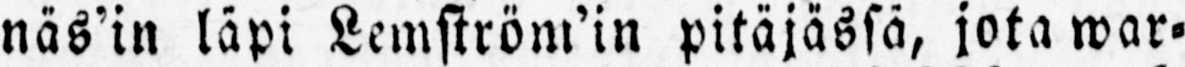näs’in läpi Lemström’in pitäjässä, jota war-
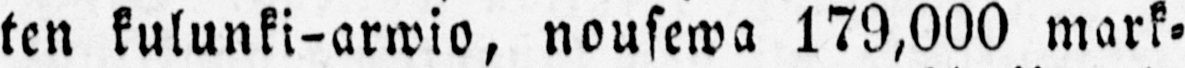ten kulunki-arwio, nousewa 179,000 mark-
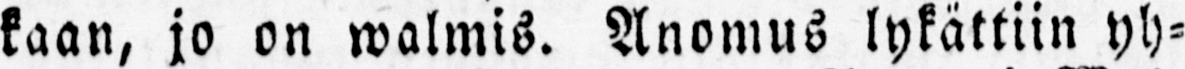kaan, jo on walmis. Anomus lykättiin yh-
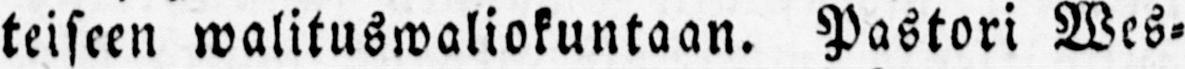teiseen walituswaliokuntaan. Pastori Wes-
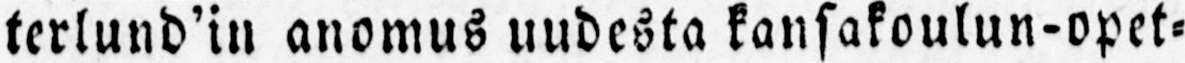terlund’in anomus uudesta kansakoulun-opet-
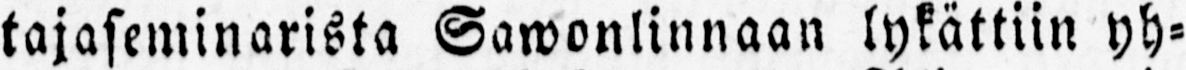tajaseminarista Sawonlinnaan lykättiin yh-
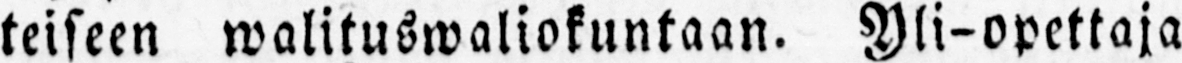teiseen walituswaliokuntaan. Yli-opettaja
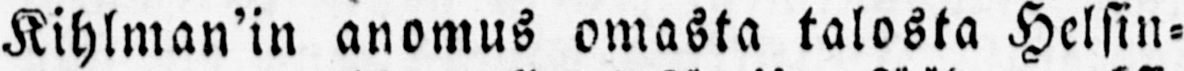Kihlman’in anomus omasta talosta Helsin-
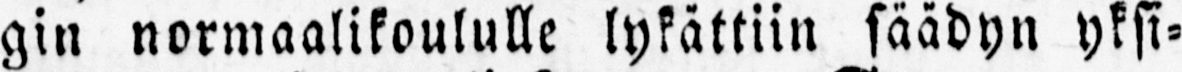gin normaalikoululle lykättiin säädyn yksi-
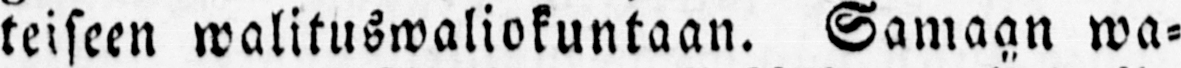öiseen walituswaliokuntaan. Samaan wa-
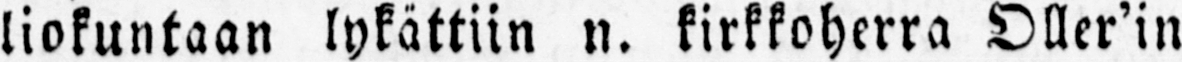liokuntaan lykättiin n. kirkkoherra Öller’in
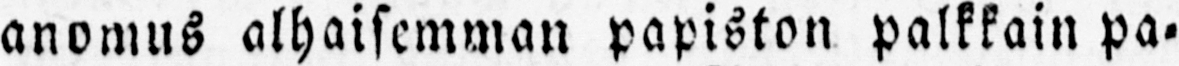anomus alhaisemman papiston palkkain pa-
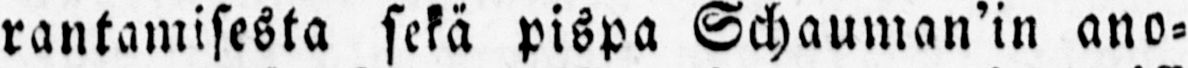rantamisesta sekä pispa Schauman’in ano-
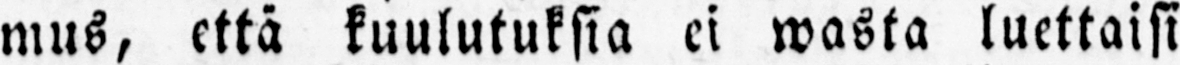mus, että kuulutuksia ei wasta luettaisi
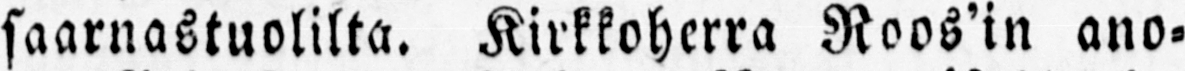saarnastuolilta. Kirkkoherra Roos’in ano-
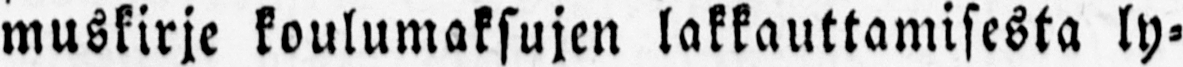muskirje koulumaksujen lakkauttamisesta ly-
